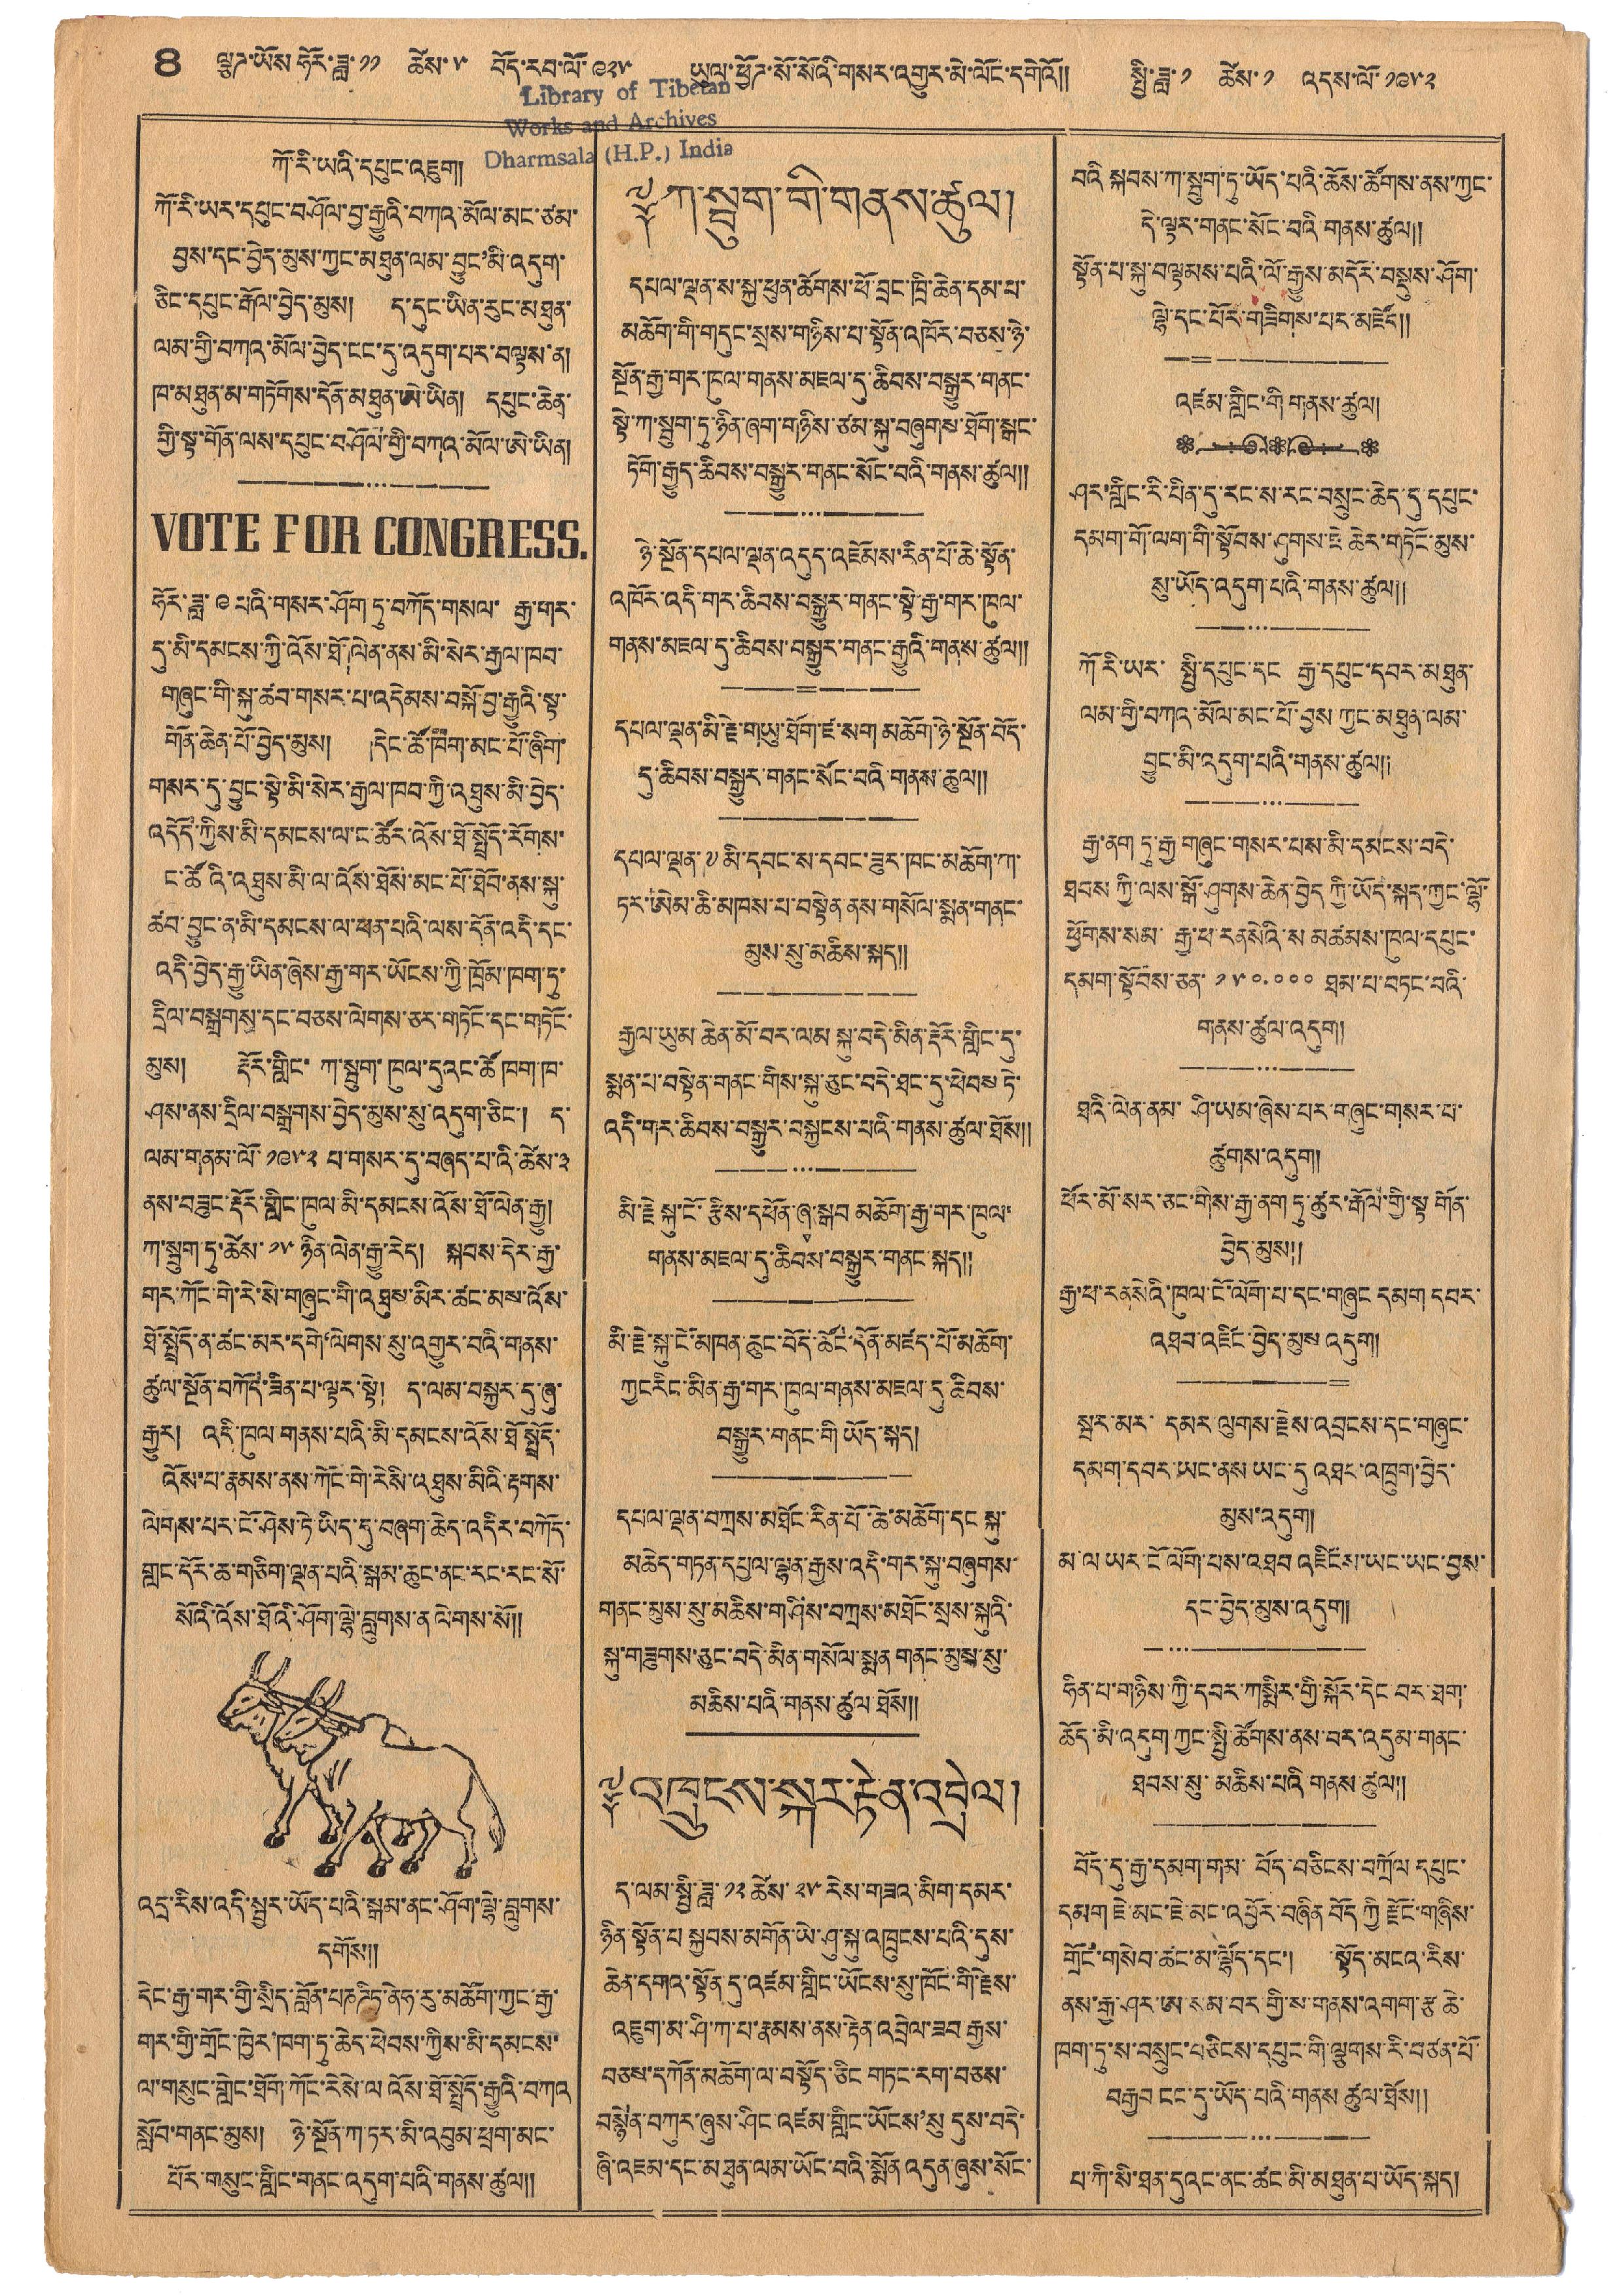8 ལྕཊ་ཡོས ཧོར་ཟླ་ ༡༡ ཚེས་ ༥ བོད་རབ་ལོ་ ༩༢༥ ཡུལ་ཕྱོཊ་སོ་སོའི་གསར་འགྱུར་མེ་ལོང་དགེའོ།། སྤྱི་ཟླ་ ༡ ཚེས་ ༡ འདས་ལོ་ ༡༩༥༢
ཀོ་རི་ཡའི་དཔུང་འཇུག།
ཀོ་རི་ཡར་དཔུང་བཤོལ་བྱ་རྒྱུའི་བཀའ་མོལ་མང་ཙམ་
བྱས་དང་བྱེད་མུས་ཀྱང་མཐུན་ལམ་བྱུང'མི་འདུག་
ཅིང་དཔུང་རྒོལ་བྱེད་མུས། ད་དུང་ཡིན་རུང་མཐུན་
ལམ་གྱི་བཀའ་མོལ་བྱེད་ངང་དུ་འདུག་པར་བལྟས་ན།
ཁ་མཐུན་མ་གཏོགས་དོན་མཐུན་ཨེ་ཡིན། དཔུང་ཆེན་
གྱི་སྟ་གོན་ལས་དཔུང་བཤོལ་གྱི་བཀའ་མོལ་ཨེ་ཡིན།
VOTE FOR CONGRESS.
ཧོར་ཟླ་ ༩ པའི་གསར་ཤོག་ཏུ་བཀོད་གསལ་ རྒྱ་གར་
དུ་མི་དམངས་ཀྱི་འོས་ཐོ་ལེན་ནས་མི་སེར་རྒྱལ་ཁབ་
གཞུང་གི་སྐུ་ཚབ་གསར་པ་འདེམས་བསྐོ་བྱ་རྒྱུའི་སྟ་
གོན་ཆེན་པོ་བྱེད་མུས། །དེང་ཚོ་ཁག་མང་པོ་ཞིག་
གསར་དུ་བྱུང་སྟེ་མི་སེར་རྒྱལ་ཁབ་ཀྱི་འཐུས་མི་བྱེད་
འདོད་ཀྱིས་མི་དམངས་ལ་ང་ཚོར་འོས་ཐོ་སྤྲོད་རོགས་
ང་ཚོའི་འཐུས་མི་ལ་འོས་ཐོས་མང་པོ་ཐོབ་ནས་སྐུ་
ཚབ་བྱུང་ན་མི་དམངས་ལ་ཕན་པའི་ལས་དོན་འདི་དང་
འདི་བྱེད་རྒྱུ་ཡིན་ཞེས་རྒྱ་གར་ཡོངས་ཀྱི་ཁྲོམ་ཁག་ཏུ་
དྲིལ་བསྒྲགས་དང་བཅས་ལེགས་ཅར་གཏོང་དང་གཏོང་
མུས། རྡོར་གླིང་ ཀ་སྦུག་ཁུལ་དུའང་ཚོ་ཁག་ཁ་
ཤས་ནས་དྲིལ་བསྒྲགས་བྱེད་མུས་སུ་འདུག་ཅིང་། ད་
ལམ་གནམ་ལོ་ ༡༩༥༢ པ་གསར་དུ་བཞད་པ་འི་ཚེས་ ༣
ནས་བཟུང་རྡོར་གླིང་ཁུལ་མི་དམངས་འོས་ཐོ་ལེན་རྒྱུ།
ཀ་སྦུག་ཏུ་ཚེས་ ༡༥ ཉིན་ལེན་རྒྱ་རེད། སྐབས་དེར་རྒྱ་
གར་ཀོང་གེ་རེ་སེ་གཞུང་གི་འཐུས་མིར་ཚང་མས་འོས་
ཐོ་སྤྲོད་ན་ཚང་མར་དགེ'ལེགས་སུ་འགྱུར་བའི་གནས་
ཚུལ་སྔོན་བཀོད་ཟིན་པ་ལྟར་སྟེ། ད་ལམ་བསྐྱར་དུ་ཞུ་
རྒྱུར། འདི་ཁུལ་གནས་པའི་མི་དམངས་འོས་ཐོ་སྤྲོད་
འོས་པ་རྣམས་ནས་ཀོང་གེ་རེསི་འཐུས་མིའི་རྟགས་
ལེགས་པར་ངོ་ཤེས་ཏེ་ཡིད་དུ་བཞག་ཆེད་འདིར་བཀོད་
གླང་དོར་ཆ་གཅིག་ལྡན་པའི་སྒམ་ཆུང་ནང་རང་རང་སོ་
སོའི་འོས་ཐོའི་ཤོག་ལྷེ་བླགས་ན་ལེགས་སོ།།
འདྲ་རིས་འདི་སྦྱར་ཡོད་པའི་སྒམ་ནང་ཤོག་ལྷེ་བླུགས་
དགོས།།
དེང་རྒྱ་གར་གྱི་སྲིད་བློན་པཎཌིཏ་ནེཧ་རུ་མཆོག་ཀྱང་རྒྱ་
གར་གྱི་གྲོང་ཁྱེར་ཁག་ཏུ་ཆེད་ཕེབས་ཀྱིས་མི་དམངས་
ལ་གསུང་གླེང་ཐོག་ཀོང་རེསེ་ལ འོས་ཐོ་སྤྲོད་རྒྱུའི་བཀའ
སློབ་གནང་མུས། ཉེ་སྔོན་ཀ་ཏར་མི་འབུམ་ཕྲག་མང་
པོར་གསུང་གླིང་གནང་འདུག་པའི་གནས་ཚུལ།།
༈ ཀ་སྦུག་གི་གནས་ཚུལ།
དཔལ་ལྡན་ས་སྐྱ་ཕུན་ཚོགས་ཕོ་བྲང་ཁྲི་ཆེན་དམ་པ་
མཆོག་གི་གདུང་སྲས་གཉིས་པ་སྟོན་འཁོར་བཅས་ཉེ་
སྔོན་རྒྱ་གར་ཁུལ་གནས་མཇལ་དུ་ཆིབས་བསྒྱུར་གནང་
སྟེ་ཀ་སྦུག་ཏུ་ཉིན་ཞག་གཉིས་ཙམ་སྐུ་བཞུགས་ཐོག་སྒང་
ཏོག་རྒྱུད་ཆིབས་བསྒྱུར་གནང་སོང་བའི་གནས་ཚུལ།།
ཉེ་སྔོན་དཔལ་ལྡན་འདུད་འཇོམས་རིན་པོ་ཆེ་སྟོན་
འཁོར་འདི་གར་ཆིབས་བསྒྱུར་གནང་སྟེ་རྒྱ་གར་ཁུལ་
གནས་མཇལ་དུ་ཆིབས་བསྒྱུར་གནང་རྒྱུའི་གནས་ཚུལ།།
དཔལ་ལྡན་མི་རྗེ་གཡུ་ཐོག་ཛ་སག་མཆོག་ཉེ་སྔོན་བོད་
དུ་ཆིབས་བསྒྱུར་གནང་སོང་བའི་གནས་ཆུལ།།
དཔལ་ལྡན་༸མི་དབང་ས་དབང་ཟུར་ཁང་མཆོག་ཀ་
ཏར་ཨེམ་ཆི་མཁས་པ་བསྟེན་ནས་གསོལ་སྨན་གནང་
མུས་སུ་མཆིས་སྐད།།
རྒྱལ་ཡུམ་ཆེན་མོ་བར་ལམ་སྐུ་བདེ་མིན་རྡོར་གླིང་དུ་
སྨན་པ་བསྟེན་གནང་གིས་སྐུ་ཅུང་བདེ་ཐང་དུ་ཕེབས་ཏེ་
འདི་གར་ཆིབས་བསྒྱུར་བསྐྱངས་པའི་གནས་ཚུལ་ཐོས།།
མི་རྗེ སྐུ་ངོ་རྩིས་དཕོན་ཞྭ་སྒབ་མཆོག་རྒྱ་གར་ཁུལ་
གནས་མཇལ་དུ་ཆིབས་བསྒྱུར་གནང་སྐད།།
མི་རྗེ་སྐུ་ངོ་མཁན་ཆུང་བོད་ཚོང་དོན་མཛད་པོ་མཆོག་
ཀྱང་རིང་མིན་རྒྱ་གར་ཁུལ་གནས་མཇལ་དུ་ཆིབས་
བསྒྱུར་གནང་གི་ཡོད་སྐད།
དཔལ་ལྡན་བཀྲས་མཐོང་རིན་པོ་ཆེ་མཆོག་དང་སྐུ་
མཆེད་གཏན་དཔྱལ་ལྷན་རྒྱས་འདི་གར་སྐུ་བཞུགས་
གནང་མུས་སུ་མཆིས་གཤིས་བཀྲས་མཐོང་སྲས་སྐུའི་
སྐུ་གཟུགས་ཅུང་བདེ་མིན་གསོལ་སྨན་གནང་མུས་སུ་
མཆིས་པའི་གནས་ཚུལ་ཐོས།།
༈ འཁྲུངས་སྐར་རྟེན་འབྲེལ།
ད་ལམ་སྤྱི་ཟླ་ ༡༢ ཚེས་ ༢༥ རེས་གཟའ་མིག་དམར་
ཉིན་སྟོན་པ་སྐྱབས་མགོན་ཡེ་ཤུ་སྐུ་འཁྲུངས་པའི་དུས་
ཆེན་དགའ་སྟོན་དུ་འཛམ་གླིང་ཡོངས་སུ་ཁོང་གི་རྗེས་
འཇུག་མ་ཤི་ཀ་པ་རྣམས་ནས་རྟེན་འབྲེལ་ཟབ་རྒྱས་
བཅས་དཀོན་མཆོག་ལ་བསྟོད་ཅིང་གཏང་རག་བཅས་
བསྙེན་བཀུར་ཞུས་ཤིང་འཛམ་གླིང་ཡོངས'སུ་དུས་བདེ་
ཞི་འཇམ་དང་མཐུན་ལམ་ཡོང་བའི་སྨོན་འདུན་ཞུས་སོང་
བའི་སྐབས་ཀ་སྦུག་ཏུ་ཡོད་པའི་ཆོས་ཚོགས་ནས་ཀྱང་
དེ་ལྟར་གནང་སོང་བའི་གནས་ཚུལ།།
སྟོན་པ་སྐུ་བལྟམས་པའི་ལོ་རྒྱུས་མདོར་བསྡུས་ཤོག་
ལྷེ་དང་པོར་གཟིགས་པར་མཛོང།།
འཛམ་གླིང་གི་གནས་ཚུལ།
ཤར་གླིང་རི་པིན་དུ་རང་ས་རང་བསྲུང་ཆེད་དུ་དཔུང་
དམག་གོ་ལག་གི་སྟོབས་ཤུགས་ཇེ་ཆེར་གཏོང་མུས་
སུ་ཡོད་འདུག་པའི་གནས་ཚུལ།།
ཀོ་རི་ཡར་ སྤྱི་དཔུང་དང རྒྱ་དཔུང་དབར་མཐུན་
ལམ་གྱི་བཀའ་མོལ་མང་པོ་བྱས་ཀྱང་མཐུན་ལམ་
བྱུང་མི་འདུག་པའི་གནས་ཚུལ།།
རྒྱ་ནག་ཏུ་རྒྱ་གཞུང་གསར་པས་མི་དམངས་བདེ་
ཐབས་ཀྱི་ལས་སྒོ་ཤུགས་ཆེན་བྱེད་ཀྱི་ཡོད་སྐད་ཀྱང་ལྷོ་
ཕྱོགས་སམ་ རྒྱ་ཕ་རནསེའི་ས་མཚམས་ཁུལ་དཔུང་
དམག་སྟོབས་ཅན་ ༡༥༠,༠༠༠ ཐམ་པ་བཏང་བའི་
གནས་ཚུལ་འདུག།
ཐའི་ལེན་ནས་ ཤི་ཡམ་ཞེས་པར་གཞུང་གསར་པ་
ཚུགས་འདུག།
ཕོར་མོ་སར་ཅང་གིས་རྒྱ་ནག ཏུ་ཚུར་རྒོལ་གྱི་སྟ་གོན་
བྱེད་མུས།།
རྒྱ་ཕ་རནསེའི་ཁུལ་ངོ་ལོག་པ་དང་གཞུང དམག དབར་
འཐབ་འཛིང་བྱེད་མུས་འདུག།
སྤར་མར་ དམར་ལུགས་རྗེས་འབྲངས་དང་གཞུང་
དམག་དབར་ཡང་ནས་ཡང་དུ་འཐང་འཁྲུག་བྱེད་
མུས་འདུག།
མ་ལ ཡར་ངོ་ལོག་པས་འཐབ་འཛིངས་ཡང་ཡང་བྱས་
དང་བྱེད་མུས་འདུག།
ཧིན་པ་གཉིས་ཀྱི་དབར་ཀསྨིར་གྱི་སྐོར་དེང བར་ཐག་
ཆོད་མི་འདུག ཀྱང་སྤྱི་ཚོགས་ནས་བར་འདུམ་གནང་
ཐབས་སུ་མཆིས་པའི གནས ཚུལ།།
བོད་དུ་རྒྱ་དམག་གམ་ བོད་བཅིངས་བཀྲོལ དཔུང་
དམག་ཇེ་མང་ཇེ་མང་འབྱོར་བཞིན་བོད་ཀྱི་རྫོང་གཞིས་
གྲོང་གསེབ་ཚང་མ་ལྷོད་དང་། སྟོད་མངའ་རིས་
ནས་རྒྱ་ཤར་ཨ་སམ་བར་གྱི་ས་གནས་འགག་རྩ ཆེ་
ཁག་ཏུ་ས་བསྲུང་བཅིངས་དཔུང་གི་ལྕགས་རི་བཙན་པོ་
བརྒྱབ ངང་དུ་ཡོད་པའི་གནས ཚུལ་ཐོས།།
པ་ཀི་སི་ཐན་དུའང་ནང་ཚང་མི་མཐུན་པ་ཡོད་སྐད།
